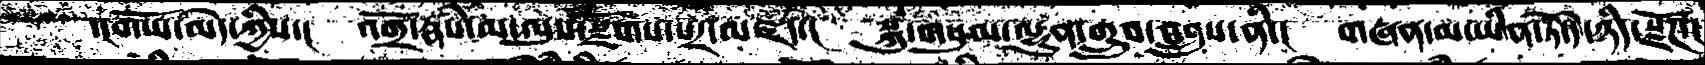་།གཡོ་མེད་ཀྱིས་། འགྲོ་རྣཾས་མ་ལུས་རྫོགས་པར་མཛད་། སྐུ་གསུམ་ལྷུན་གྲུབ་འབྲུས་ནི་། གཞན་མ་ཡིན་ཏེ་དེ་ཉིད་སྫོཌ་།
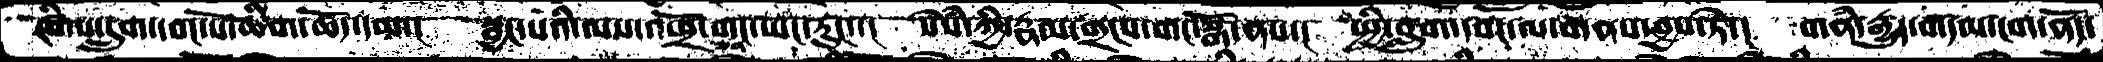རིགས་དྲུག་དབང་པོ་ཆིག་ཆོད་དམ་།   སྦྱང་པའི་ལས་འཕྲོ་གང་ཡང་རུང་་།   སེསཾ་ཀྱི་རྣམ་གྲངས་གང་སྒོ་ནས་།  སྤྱི་བླུག་དབང་ལ་གནས་བྱས་ཏེ་།  གནཾ་རྒྱུད་གདམ་ངག་ནོད་
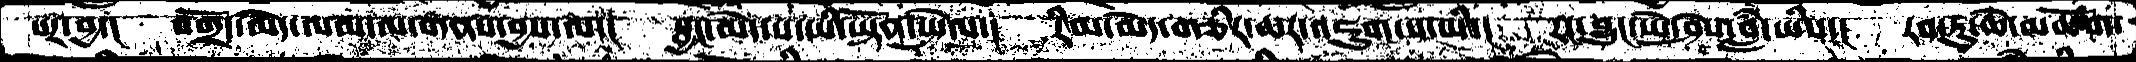པར་བྱ་།  བགྲོད་མེད་ལམ་ལ་གནས་བྱས་ལ་།  སྦྱང་མེད་པ་ཡི་ཡྟོན་སྤེལ་།  རིམ་མེད་གཅིར་ཆར་འཇུག་པ་ཡི་།  རང་བྱུང་ཡེ་ཤེས་བླཾ་ཡིས་།  རབ་ཏུ་ཆེ་མཆོག་
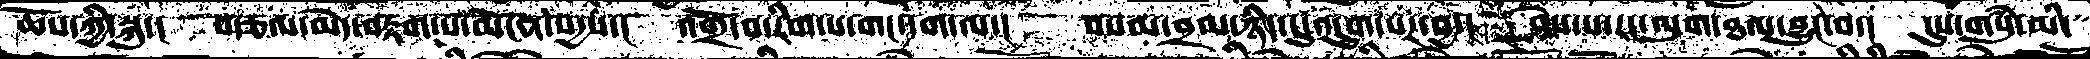ཆོས་ཀྱི་སྐུ་།  བརྩལ་མེད་བརྟག་པ་མངོན་སདྱས་།  འགྲོ་བ་རིག་པ་གང་དག་ལ་།   བསམ་བྲལ་ཉིད་དུ་འདུག་པར་བྱ་།  ཤེས་པ་རང་ལུག་ཐལ་བྱུང་བ་།  དུས་གསུཾ་མི
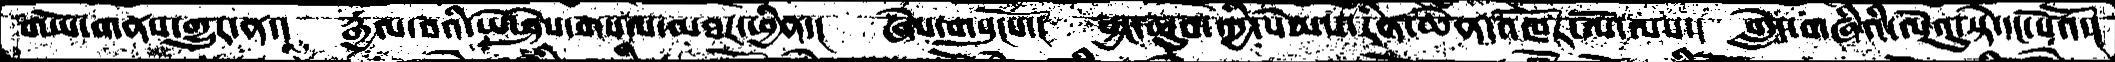གཡོ་གནས་གྱུར་ན་།  རྒྱལ་བའི་ཡེ་ཤེས་གསལ་མཐར་ཕྱིན་།  ཞེས་གསུངསོ་།  བྱང་ཆུབ་ཀྱི་སེམས་རིན་ཆེན་འཁོར་ལོ་ལས་།  གླེང་གཞིའི་ལེའུ་སྟེ་དང་པོའོ་།
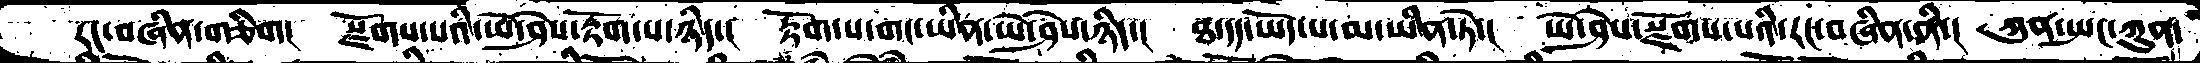རང་བཞིན་གཅིག།  སྫོགས་པའི་ཡེ་ཤེས་རྟོག་པ་ཉིད་།  རྟོག་པ་གང་ཡིན་ཡེ་ཤེས་ཉིད་།  ཐ་དད་ཡོད་པ་མ་ཡིན་ཏེ་།  ཡེ་ཤེས་སྫོགས་པའི་རང་བཞིན་ནི་།  ཀུན་སྤང་ཀུན་
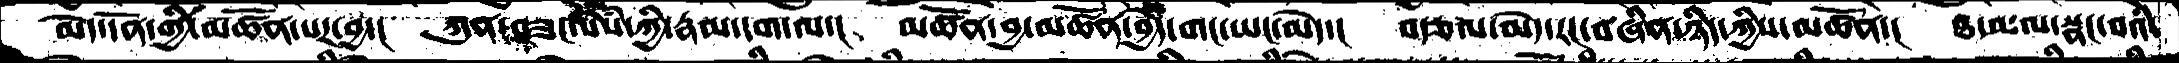མེད་དོན་གྱི་མཚོན་པར་བྱ་།   ཀུན་བཟང་སེཾས་ཀྱི་རྣམ་དག་ལ་།  མཚོན་བྱ་མཚོན་བྱེད་གང་ཡང་མེད་།  བརྩལ་མེད་རང་བཞིན་ཉིད་ཀྱིས་མཚོན་།  ཐ་མལ་སྣང་བའི་
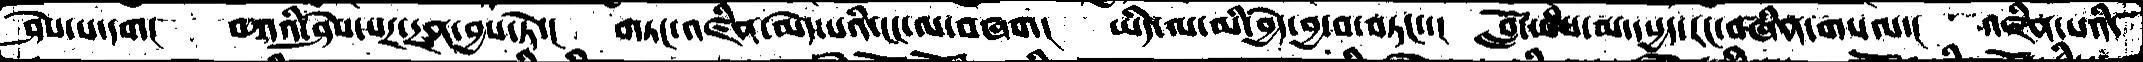ཤེས་པ་དག།  བཀའི་ཤེས་པར་དྲན་བྱས་ཏེ་།  གཏང་འཛིན་མེད་པའི་ངང་ལ་བཞག།  ཡིད་ལ་མི་བྱེད་བྱ་བ་བཏང་་།  བློ་ཡིས་མ་དཔྱད་རང་བཞིན་གསལ་།  འཛིན་པའི་
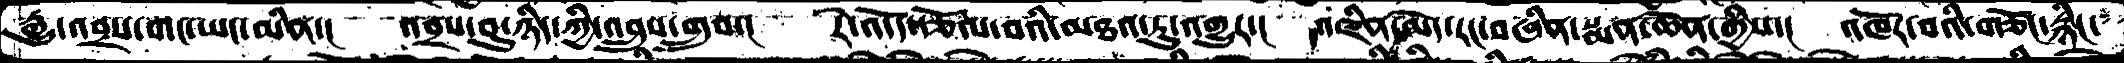རྒྱུ་འབྲས་གང་ཡང་མིན་།  འབྲས་བུ་ཉིད་ཀྱི་འབྲུས་གྲུབ་།   རེ་འདོད་རྩོལ་བའི་མཐའ་རུ་འགྱུར་།  འཛིན་མེད་རང་བཞིན་སྨན་ཆེན་གྱིས་།  འཁོར་བའི་གཅོང་སྙིང་
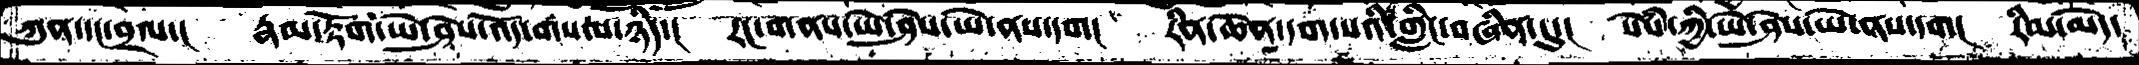ཀུན་དང་བྲལ་།  རྣམ་རྟོག་ཡེ་ཤེས་འོད་གསལ་ཉིད་།   རང་གནས་ཡེ་ཤེས་ཡེ་ནས་དག།  རིན་ཆེན་དག་པའི་གླིང་བཞིན་དུ་།  སེཾས་ཀྱི་ཡེ་ཤེས་ཡེ་ནས་དག།  རིམ་མེད་
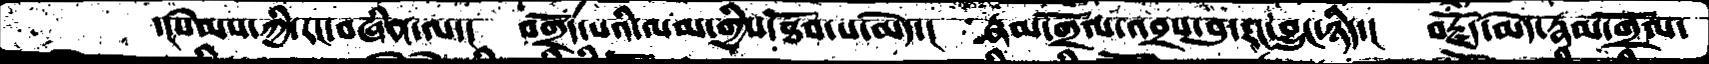དངསེམས་ཀྱི་རང་བཞིན་ལ་།  བགྲོད་པའི་ལམ་གྱིས་ཐོབ་པ་མེད་།   རྣམ་གྲོལ་འབྲས་བུ་རང་བྱུང་ཉིད་།  བརྗོད་མེད་རྣམ་གྲོལ་
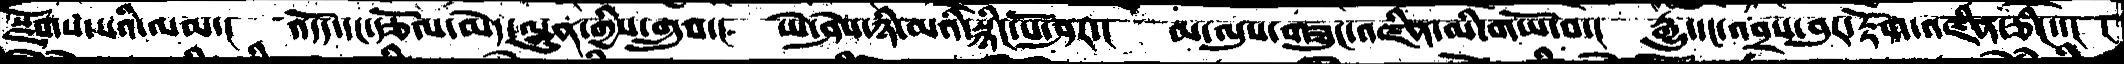སྫོགས་པའི་ལམ་།   འདོད་དང་རྩོལ་མེད་ལྷུན་གྱིས་གྲུབ་།  ཡེ་ཤེས་ཉི་མའི་སྙིང་པོ་ཤར་།  མ་ལུས་གཟུང་འཛིན་མི་གཡོ་བ་།   རྒྱུ་དང་འབྲས་བུར་རྟོག་འཛིན་ཅིང་་།  །
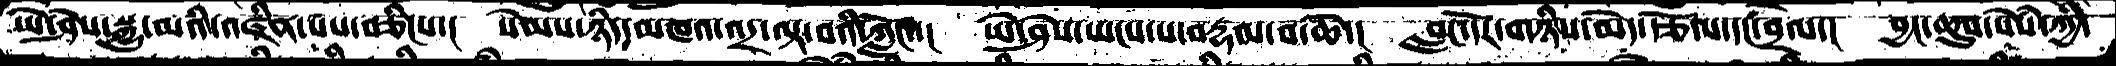ཡེ་ཤེས་སྒྱུ་མའི་འཛིན་པས་བཅིངས་།  སེམས་ཉིད་མཁའ་འདྲ་ལྟ་བའི་ཀློང་་།  ཡེ་ཤེས་ཡངས་པ་བརྡལ་བ་ཆེ་།   བླང་དོར་གཉིས་མེད་རྩོལ་དང་བྲལ་།  བྱང་ཆུབ་སེཾས་ཀྱི་
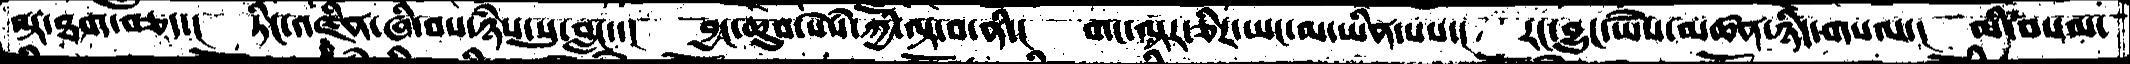ལྟ་ཐག་བཅད་།  ཏིང་འཛིན་ཞི་བས་ཉཾས་སུ་བླང་་།  བྱང་ཆུབ་སེཾས་ཀྱི་ལྟ་བ་ནི་།  གང་ལྟར་ཅིར་ཡང་མ་ཡིན་པས་།  རང་བྱུང་ཡཻས་མཚན་ཉིད་གསལ་།  མི་བསམ་
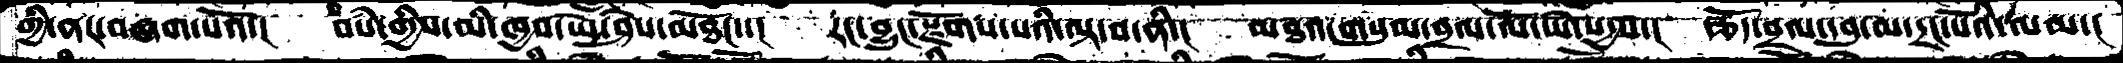གྱི་ནར་བཞག་པའོ་།  བསཾ་གྱིས་མི་ཁྱབ་ཡེ་ཤེས་མཐོང་་།  རང་བྱུང་སྫོགས་པའི་ལྟ་བ་ནི་།  མཐའ་གསུམ་བྲལ་ལོ་ཡེ་སདྱས་།  རྩོད་བྲལ་དབུ་མ་དྲང་པོའི་ལམ་།
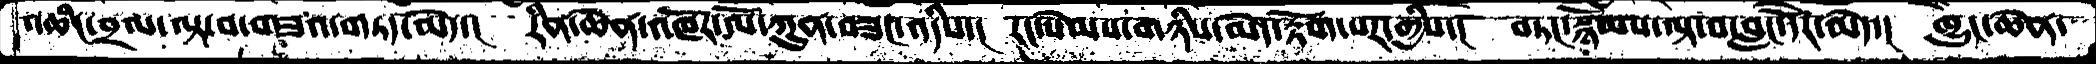འཆིང་བྲལ་ལྟ་བ་གཟའ་གཏད་མེད་།  རིན་ཆེན་འཁོར་ལོ་ཀུན་བཟང་འདིས་།  རང་སེམས་གཉིས་མེད་རྟོག་པར་གྱིས་།  བཏང་སྙོམས་ལྟ་བ་བླང་དོར་མེད་།   ཁྱུང་ཆེན
